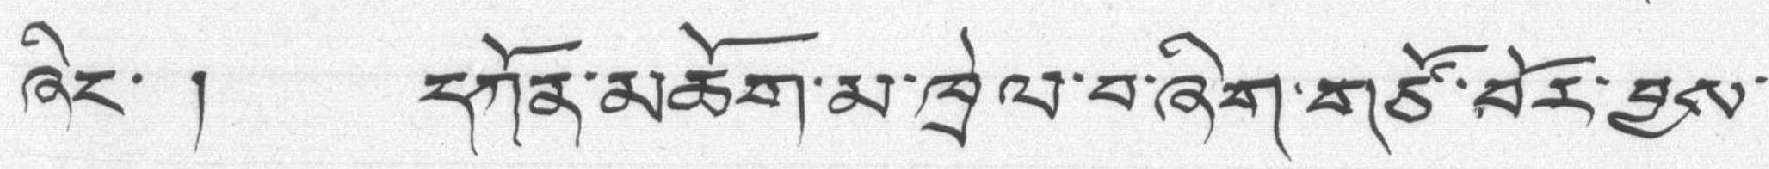ཞིང་ ། དཀོན་མཆོག་མ་ཁྲེལ་བ་ཞིག་གཙོ་བོར་བྱས་
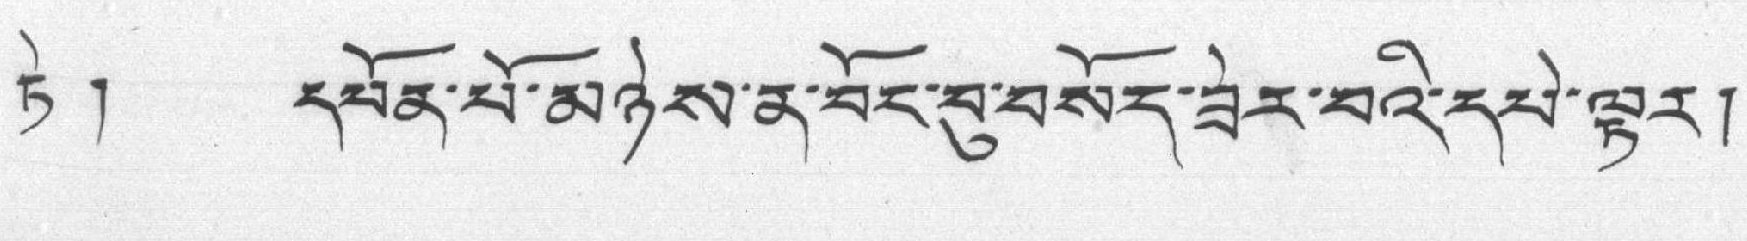ཏེ ། དཔོན་པོ་མཉེས་ན་བོང་བུ་བསོད་ཟེར་བའི་དཔེ་ལྟར།
